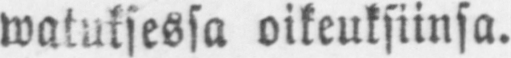watuksessa oikeuksiinsa.
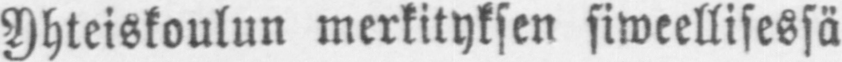Yhteiskoulun merkityksen siweellisessä
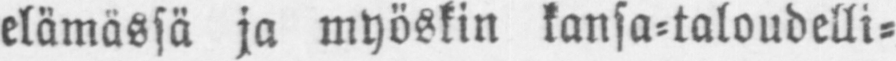elämässä ja myöskin kansa-taloudelli-
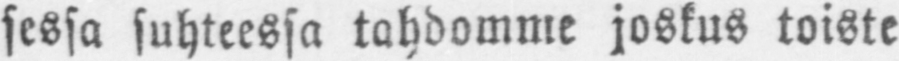sessa suhteessa tahdomme joskus toiste
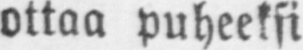ottaa puheeksi
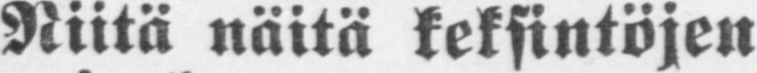Niitä näitä keksintöjen
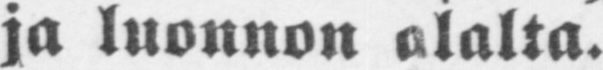ja luonnon olalta.
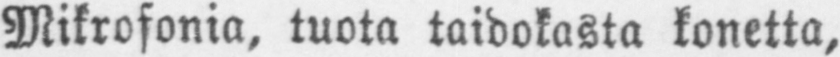Mikrofonia, tuota taidokasta konetta,
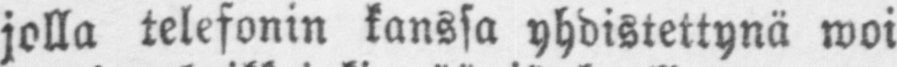jolla telefonin kanssa yhdistettynä woi
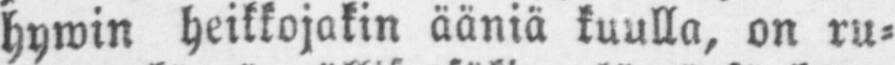hywin heikkojakin ääniä kuulla, on ru-
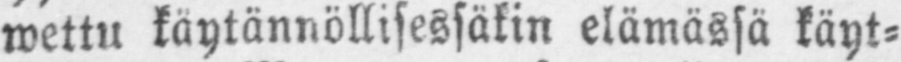wettu käytännöllisessäkin elämässä käyt-
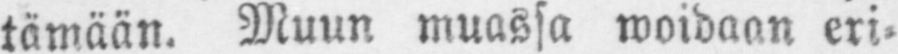tämään. Muun muassa woidaan eri-
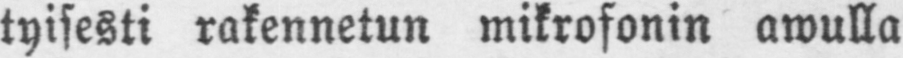tyisesti rakennetun mikrofonin awulla
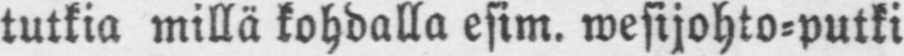tutkia millä kohdalla esim. wesijohto-putki
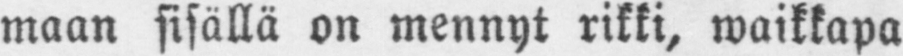maan sisällä on mennyt rikki, waikkapa
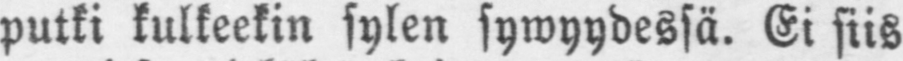putki kulkeekin sylen sywyydessä. Ei siis
